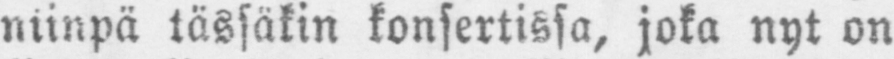niinpä tässäkin konsertissa, joka nyt on
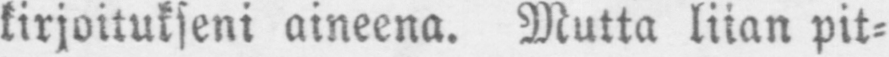kirjoitukseni aineena. Mutta liian pit-
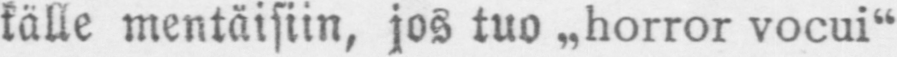källe mentäisiin, jos tuo „horror vocui"
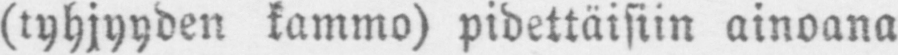(tyhjyyden kammo) pidettäisiin ainoana
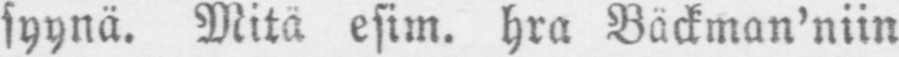syynä. Mitä esim. hra Bäckman'niin
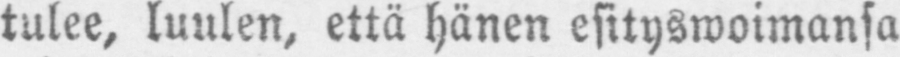tulee, luulen, että hänen esityswoimansa
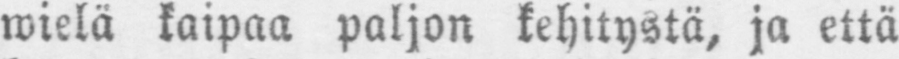wielä kaipaa paljon kehitystä, ja että
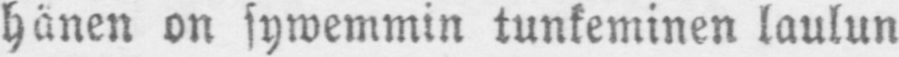hänen on sywemmin tunkeminen laulun
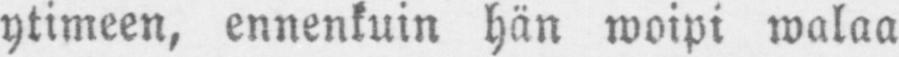ytimeen, ennenkuin hän woipi walaa
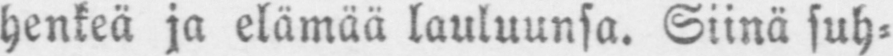henkeä ja elämää lauluunsa. Siinä suh-
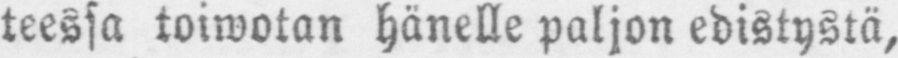teessa toiwotan hänelle paljon edistystä,
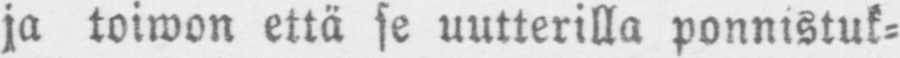ja toiwon että se uutterilla ponnistuk-
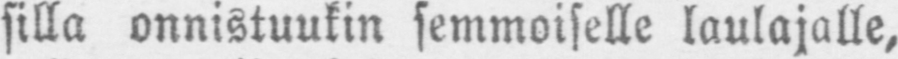silla onnistuukin semmoiselle laulajalle,
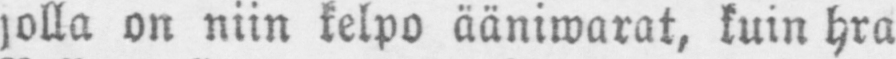jolla on niin kelpo ääniwarat, kuin hra
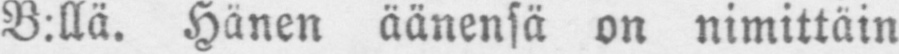B:llä. Hänen äänensä on nimittäin
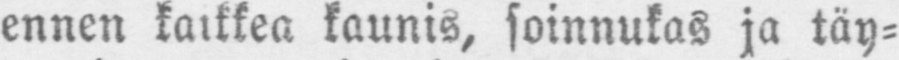ennen kaikkea kaunis, soinnukas ja täy-
